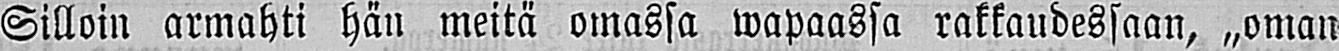Silloin armahti hän meitä omassa wapaassa rakkaudessaan, „oman
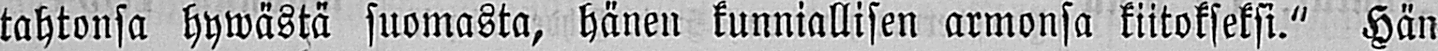tahtonsa hywästä suomasta, hänen kunniallisen armonsa kiitokseksi." Hän
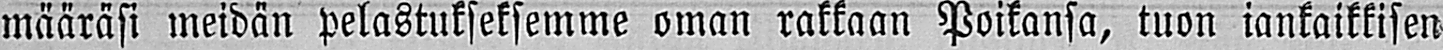määräsi meidän pelastukseksemme oman rakkaan Poikansa, tuon iankaikkisen
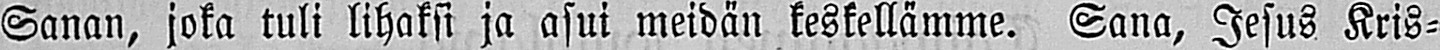Sanan, joka tuli lihaksi ja asui meidän keskellämme. Sana, Jesus Kris-
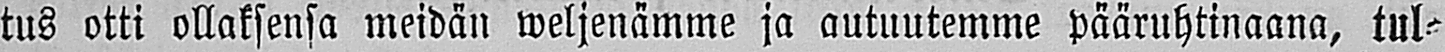tus otti ollaksensa meidän weljenämme ja autuutemme pääruhtinaana, tul-
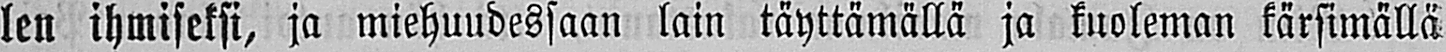len ihmiseksi, ja miehuudessaan lain täyttämällä ja kuoleman kärsimällä
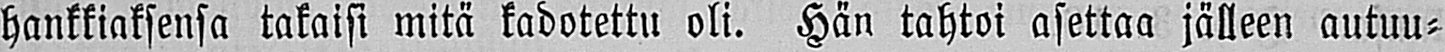hankkiaksensa takaisi mitä kadotettu oli. Hän tahtoi asettaa jälleen autuu-
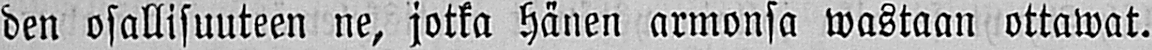den osallisuuteen ne, jotka hänen armonsa wastaan ottawat.
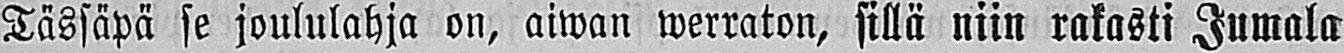Tässäpä se joululahja on, aiwan werraton, sillä niin rakasti Jumala
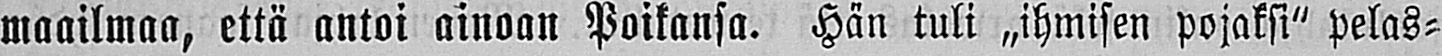maailmaa, että antoi ainoan Poikansa. Hän tuli „ihmisen pojaksi" pelas-
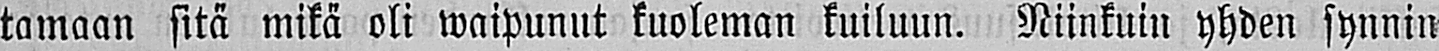tamaan sitä mikä oli waipunut kuoleman kuiluun. Niinkuin yhden synnin
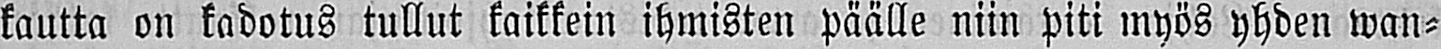kautta on kadotus tullut kaikkein ihmisten päälle niin piti myös yhden wan-
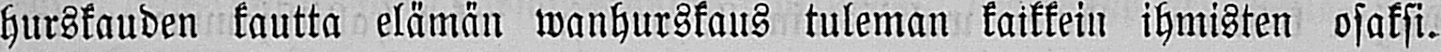hurskauden kautta elämän wanhurskaus tuleman kaikkein ihmisten osaksi.
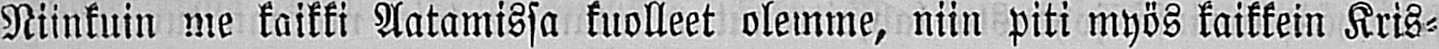Niinkuin me kaikki Aatamissa kuolleet olemme, niin piti myös kaikkein Kris-
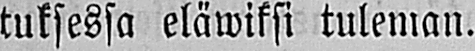tuksessa eläwiksi tuleman.
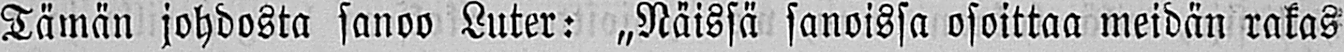Tämän johdosta sanoo Luter: „Näissä sanoissa osoittaa meidän rakas
